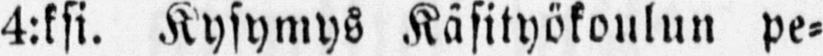4:ksi. Kysymys Käsityökoulun pe-
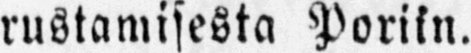rustamisesta Poriin.
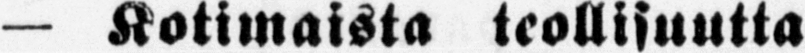— Kotimaista teollisuutta
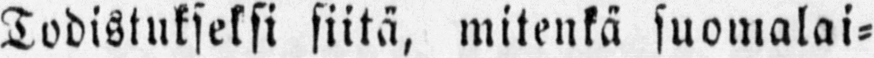Todistukseksi siitä, mitenkä suomalai-
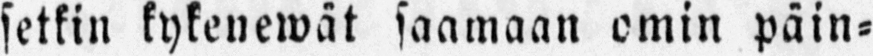setkin kykenewät saamaan omin päin-
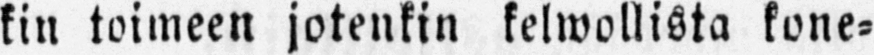kin toimeen jotenkin kelwollista kone-
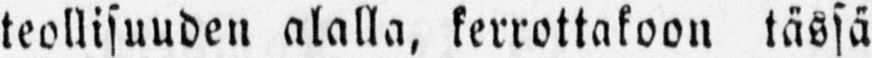teollisuuden alalla, kerrottakoon tässä
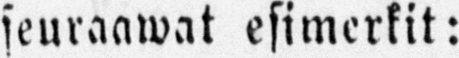seuraawat esimerkit:
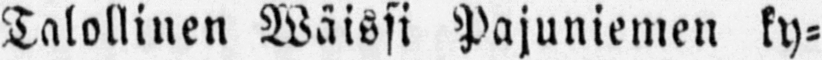Talollinen Wäissi Pajuniemen ky-
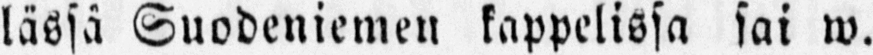lässä Suodeniemen kappelissa sai w.
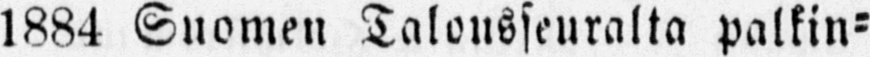1884 Suomen Talousseuralta palkin-
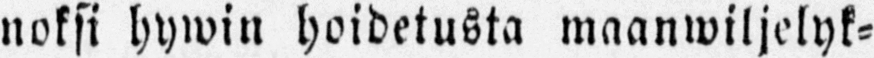noksi hywin hoidetusta maanwiljelyk-
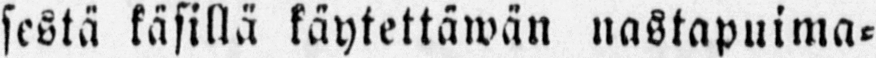sestä käsillä käytettäwän nastapuima-
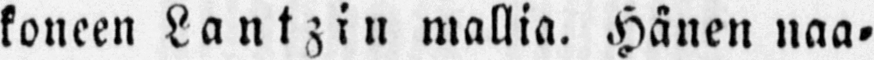koneen Lantzin mallia. Hänen naa-
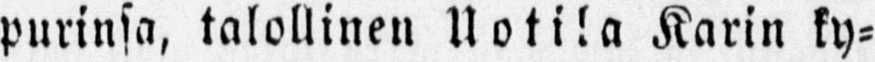purinsa, talollinen Uotila Karin ky-
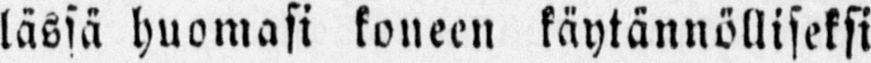lässä huomasi koneen käytännölliseksi
